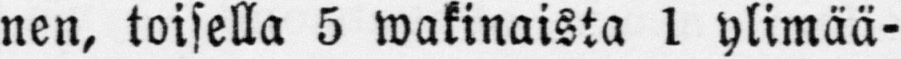nen, toisella 5 wakinaista 1 ylimää-
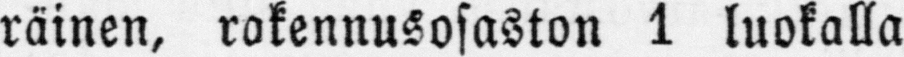räinen, rakennusosaston 1 luokalla
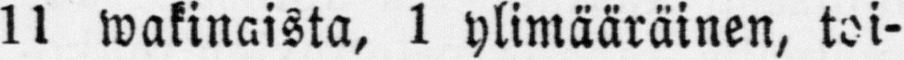11 wakinaista, 1 ylimääräinen, toi-
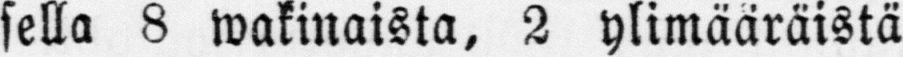sella 8 wakinaista, 2 ylimääräistä
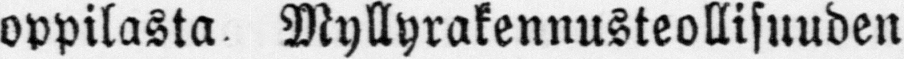oppilasta. Myllyrakennusteollisuuden
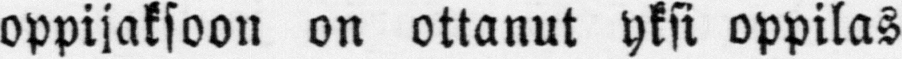oppijaksoon on ottanut yksi oppilas
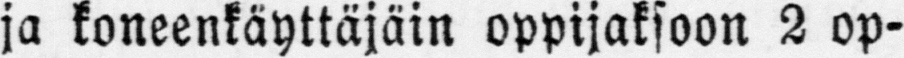ja koneenkäyttäjäin oppijaksoon 2 op-
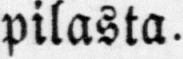pilasta.
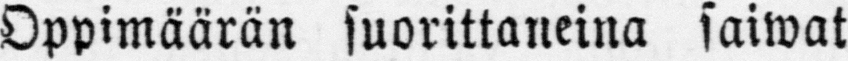Oppimäärän suorittaneina saiwat
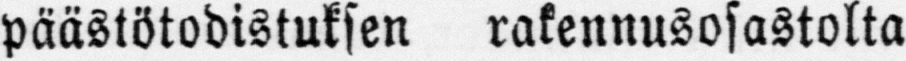päästötodistuksen rakennusosastolta
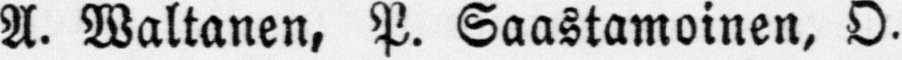A. Waltanen, P. Saastamoinen, O.
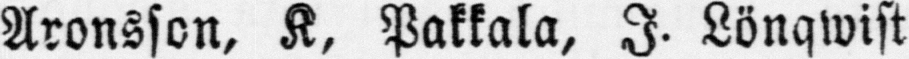Aronsson, K, Pakkala, I. Lönqwist
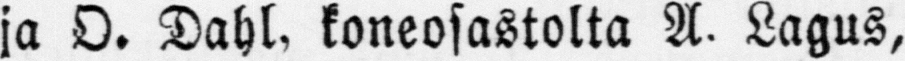ja O. Dahl, koneosastolta A. Lagus,
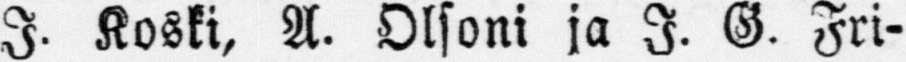I. Koski, A. Olsoni ja I. G. Fri-
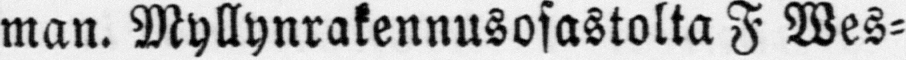man. Myllynrakennusosastolta F Wes-
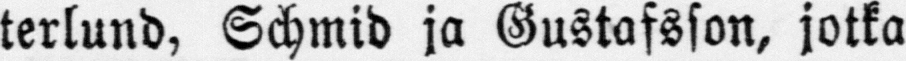terlund, Schmid ja Gustafsson, jotka
